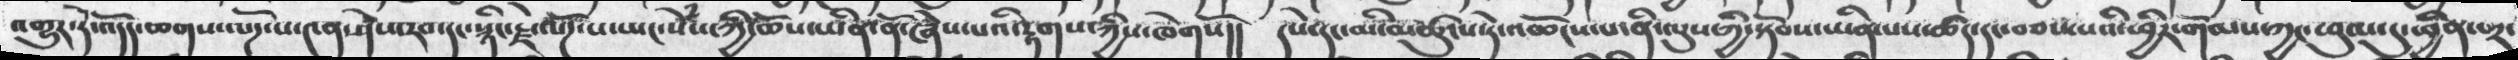འགྱུར་དེ་འདོད་ཆགས་ལོཌ་པ་༤ན་ཤེས་རབ་དང་སྙིང་རྗེ་ལོཌ་པ་ཡང་སེཾས་ཀྱི་ཆོས་ཡིན་ནོ་ཞེས་པའི་རྟགས་ཀྱིས་ཁེགསོ།།    དཔེ་དང་མི་མཚུངས་དེ་འཆོངས་པ་ནི་ལུས་ཀྱི་སྟོབས་ཡིན་པས་ཚད་དང་བཅས་པའི་ཕྱིར་གོམས་ཀྱང་ཕུལ་དུ་ཕྱིན་གྲ་
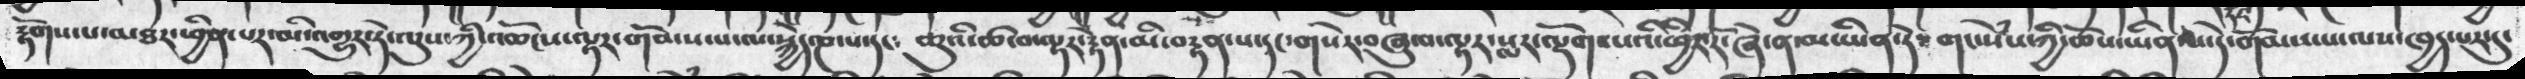རྟོགས་པ་མཐར་ཕྱིན་པར་མི་འགྱུར་ཏེ་ལུས་ཀྱི་འཆོངས་ལྟར་གོམས་པ་ལ་སྐྱེད་ཎ་པ་དང༴   ཆུའི་ཚ་བ་ལྟར་རྟེན་མི་བརྟན་པ་དང་གསེར་བཞུ་བ་ལྟར་སླར་ལྡོག་པའི་ཕྱིར་རོ་ཞེ་ན་མ་ཡིན་ཏེ༴   གང་སེཾས་ཀྱི་ཆོས་ཡིན་པ་དེ་གོམས་པ་ལས་ཁྱད་པར་དུ་
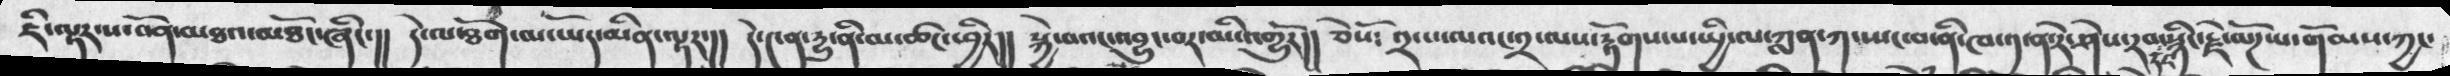ཇི་ལྟར་ས་བོན་མཐའ་མཐོང་ཞིང་།།  དེ་ལ་ཐོ་མ་ཡོད་མིན་ལྟར་།།  དེ་༤ན་དྱུ་ནི་མ་ཚང་ཕྱིར།།  སྐྱེ་བའང་འབྱུང་བར་མི་འགྱུརོ།།  ཅེསོ༴  ༢་པ་ལའང་༢་ལས་རྟོགས་པ་སྤྱི་ལ་ཀླན་ཀ་སྤང་བ་ནི་ཁ་༡་ན་རེ་ཤེས་རབ་དང་སྙིང་རྗེ་ལོཌ་པ་གོམས་ཀྱང་
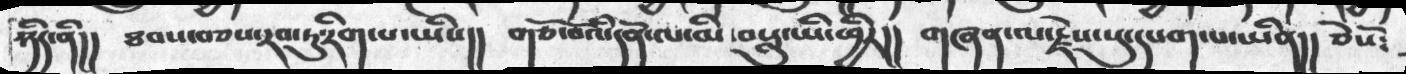ཉིད་ནི།།   ཐབས་བཅས་རབ་ཏུ་རིག་པ་ཡིས།།   གཙོ་བོའི་དོན་ལ་མི་བསླུ་ཡི་ཕྱིར།།  གཞན་ལ་རྗེས་སུ་དཔག་པ་ཡིན།།  ཅེསོ༴
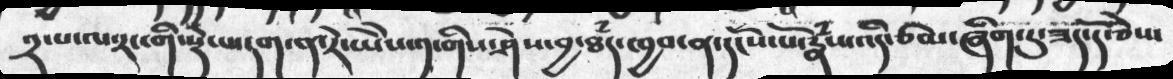༢་༷པ་ལ་རང་གི་སྡེ་པ་དག་ན་རེ་ཡེེས་༡་གིས་ཤེས་བྱ་ཐཾད་ཁྱབ་ན་དངོས་པོ་རྣཾས་འདི་ཙམ་ཞིག་ཏུ་ཟད་དོ་ཅེས་
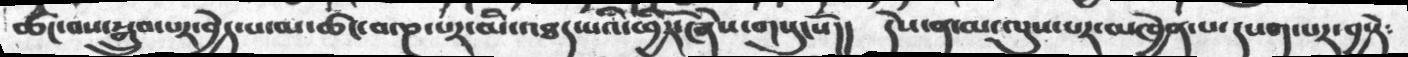ཚང་བས་སྒྲུབ་པར་བྱེད་པ་མ་ཚང་བ་ཎ་པར་མི་འཐད་པའི་ཕྱིརོ་ཞེས་གསུངསོ།།   དེས་ན་མ་ལུས་པར་མཁྱེན་པ་དཔག་པར་བྱ་ཏེ༴
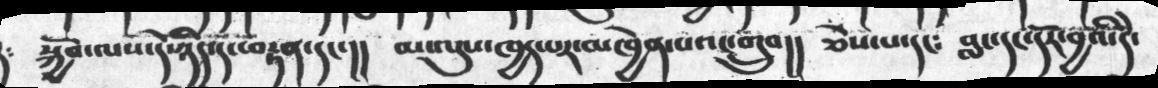།  སྐྱོབ་ལས་དེ་ཉིད་དང་བརྟན་དང་།།   མ་ལུས་ཁྱད་པར་མཁྱེན་པའང་གྲུབ།།  ཅེས་པ་དང༴   བླང་དང་དོར་བྱའི་དེ་
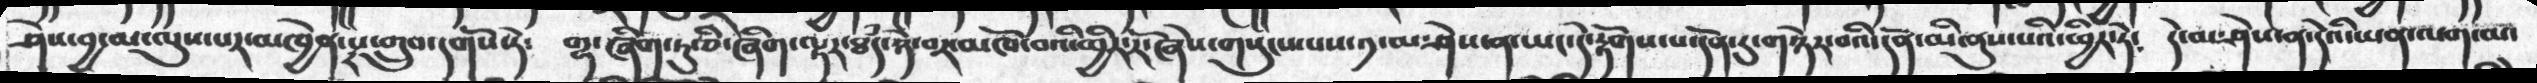ཤེས་བྱ་མ་ལུས་པར་མཁྱེན་པར་གྲུབ་དགོས་ཏེ༴   གྷ་ཞིག་རུ་ཅི་ཞིག་ལྟར་ཐཾད་ཉེ་བར་མཁོ་བའི་ཕྱིར་རོ་ཞེས་གསུངས་པས་༡་མ་ཤེས་ན་ཡང་དེ་རྟོགས་པ་དོན་དུ་གཉེར་བའི་དོན་མི་ནུས་པའི་ཕྱིར་ཏེ༴  དེ་མ་ཤེས་ན་དེའི་ཡན་ལག་མ་
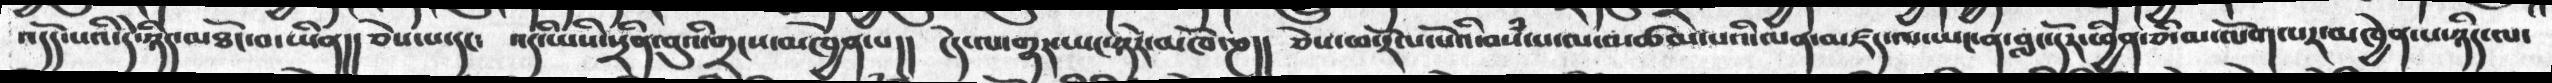འདོད་པའི་དེ་ཉིད་མཐོང་བ་ཡིན།།  ཅེས་པ་དང༴   འདི་ཡིས་སྲིན་བུའི་གྲངས་མཁྱེན་པ།།  ངེད་ལ་གྷར་ཡང་ཉེར་མཁོ་ཎ།།  ཅེས་ཕ་རོལ་པོའི་བསཾ་པ་ལ་མཚམ་པའི་ལན་མཛད་ལ་ཡང་ན་བླང་དོར་ཕྱིན་ཅི་མ་ལོག་པར་མཁྱེན་པ་ཉིད་ལ་
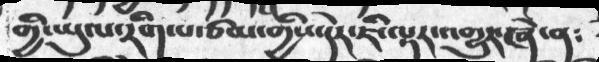གྱི་ཡུལ་རིག་པ་ཙམ་གྱིས་དེར་ཇི་ལྟར་འགྱུར་ཞེ་ན༴
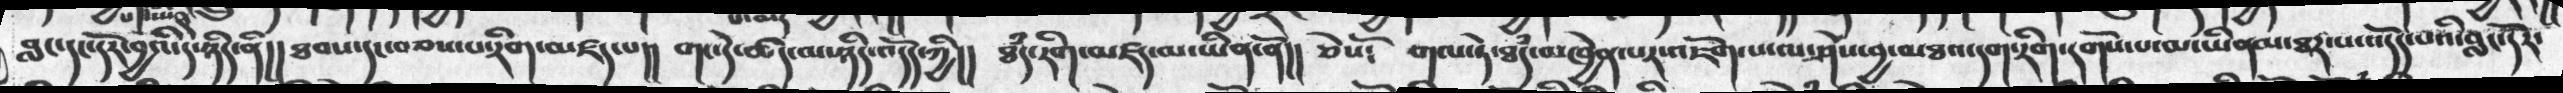བླང་དང་དོར་བྱའི་དེ་ཉིད།།  ཐབས་དང་བཅས་པ་རིག་མཛད་པ།།  གང་དེ་ཚད་མ་ཉིད་འོདད་ཀྱི།།  ཐཾད་རིག་མཛད་མ་ཡིན་ནོ།།  ཅེསོ༴  གལ་ཏེ་ཐཾད་མཁྱེན་པར་འཇོག་པ་ལ་ཤེས་བྱ་མཐའ་དག་རིག་དགོས་པ་མ་ཡིནམ་ཐར་པ་འདོད་བའི་བླང་དོར་
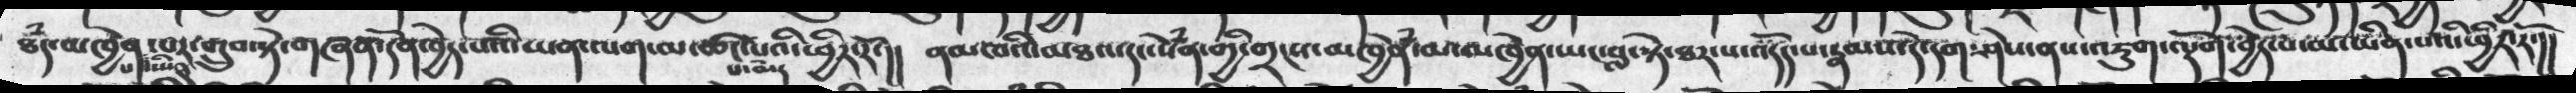ཐཾད་མཁྱེན་པ་ཡིན་པར་གྲུབ་སྟེ་གཞན་དོན་བྱེད་པའི་ཡན་ལག་མ་ཚང་པ་མེད་པའི་ཕྱིར་རོ་།།  ནམ་ཁའི་མཐའ་དང་སེཾན་གྱི་གྲངས་མཁྱེན་མ་མཁྱེན་ཡང་བླང་སྟེ་ཐར་པ་འདོད་པ་རྣམས་དེ་དག་ཤེས་ནས་འཇུག་ལྡོག་བྱེད་པོ་མ་ཡིན་པའི་ཕྱིར་རོ་།།
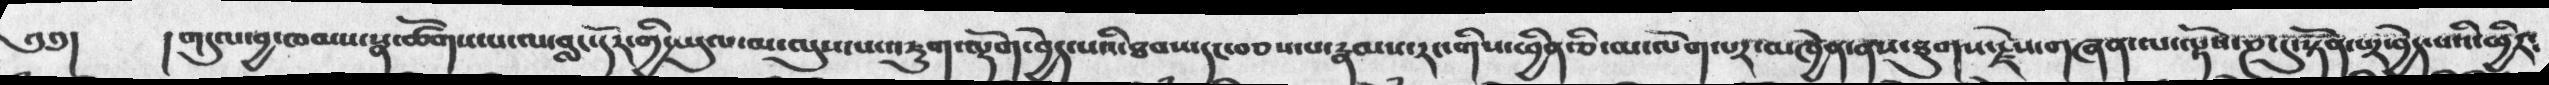༄༅།      ། གདུལ་བྱ་ཁམས་སྣ་ཚོགས་པ་ལ་བླང་དོར་གྱི་ཡུལ་མ་ལུས་པ་འཇུག་ལྡོག་བྱེད་པའི་ཐབས་དང་བཅས་པ་རྣམས་རང་གིས་ཕྱིན་ཅི་མ་ལོག་པར་མཁྱེན་ནས་ཐུགས་རྗེས་གཞན་ལ་ལྟོས་ཎ་དུ་སྟོན་པར་བྱེད་པའི་ཕྱིར༴
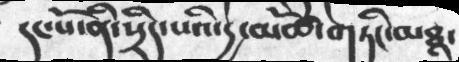དང་པོ་ནི་སྲིད་པའི་དྱ་མཚོ་གཏིང་མཐ་
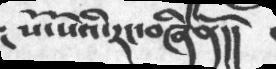༴   སོ་སོའི་རང་བཞིནོ།།
